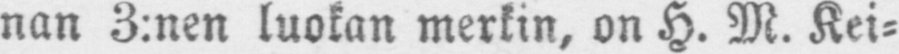nan 3:nen luokan merkin, on H. M. Kei-
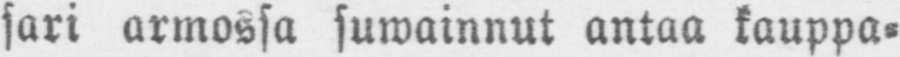sari armossa suwainnut antaa kauppa-
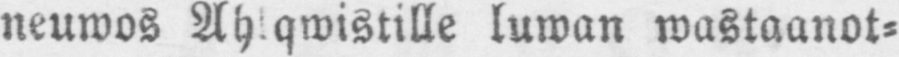neuwos Ahlqwistille luwan wastaanot-
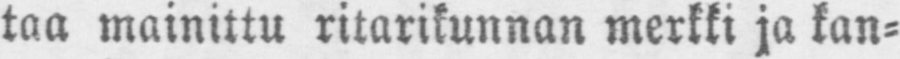taa mainittu ritarikunnan merkki ja kan-
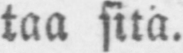taa sitä.
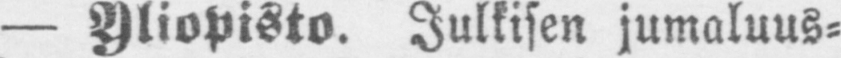— Yliopisto. Julkisen jumaluus-
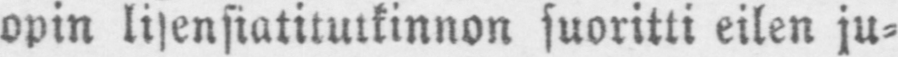opin lisensiatitutkinnon suoritti eilen ju-
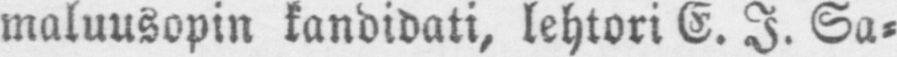maluusopin kandidati, lehtori E. I. Sa-
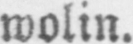wolin.
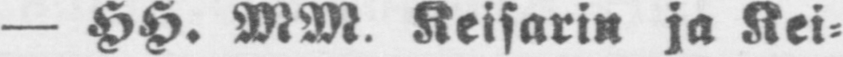— HH. MM. Keisarin ja Kei-
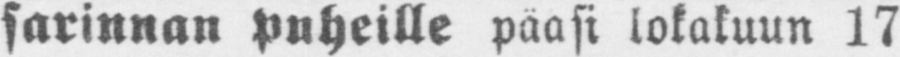sarinnan puheille pä äsi lokakuun 17
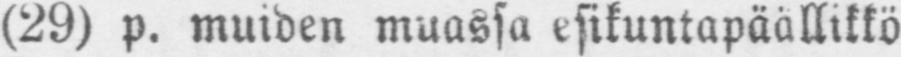(29) p. muiden muassa esikuntapäällikkö
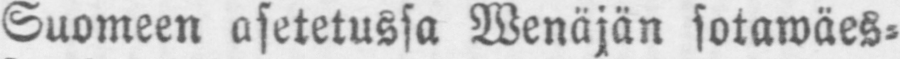Suomeen asetetussa Wenäjän sotawäes-
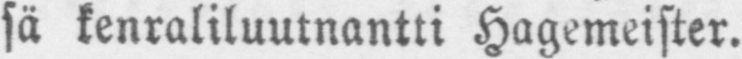sä kenraliluutnantti Hagemeister.
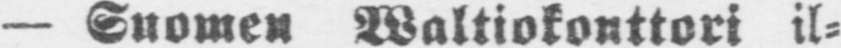— Suomen Waltiokonttori il-
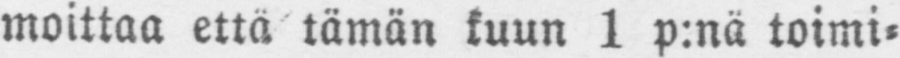moittaa että tämän kuun 1 p:nä toimi-
